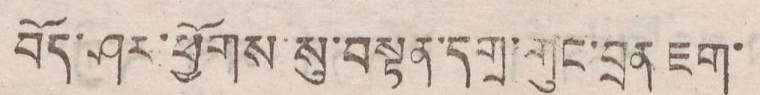བོད་ཤར་ཕྱོགས་སུ་བསྟན་དགྲ་གུང་བྲན ཇག་
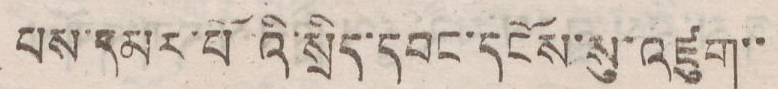པས་དམར་པོའི་སྲིད་དབང་དངོས་སུ་འཛུག་་
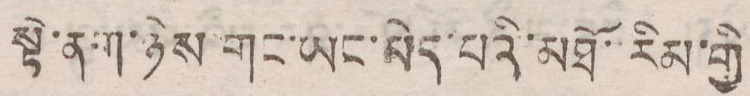སྟེ་ནག་ཉེས གང་ཡང་མེད་པའི་མཐོ་རིམ་གྱི
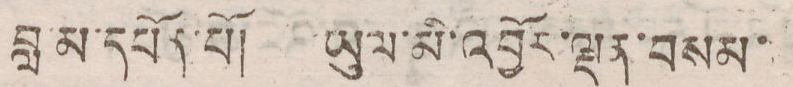བླ་མ་དཔོན་པོ། ཡུལ་མི་འབྱོར་ལྡན་བསམ་
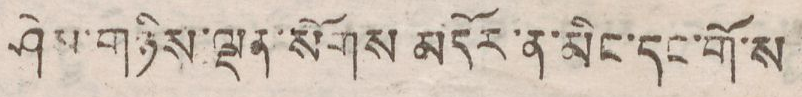ཤེས་གཉིས་ལྡན་སོགས མདོར་ན་མིང་དང་གོ་ས
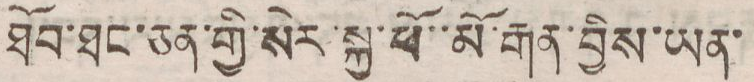ཐོབ་ཐང་ཅན་གྱི་སེར་སྐྱ་ཕོ་་མོ་རྒན་བྱིས་ཡན་
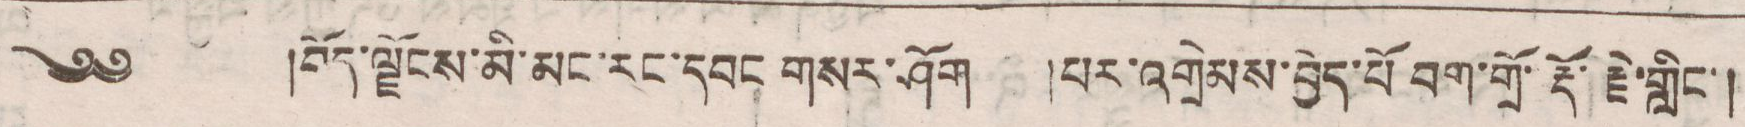༄༅ །བོད་ལྗོངས་མི་མང་རང་དབང གསར་ཤོག །པར་འགྲེམས་བྱེད་པོ བག་གྲོ་རྡོ་རྗེ་གླིང་།
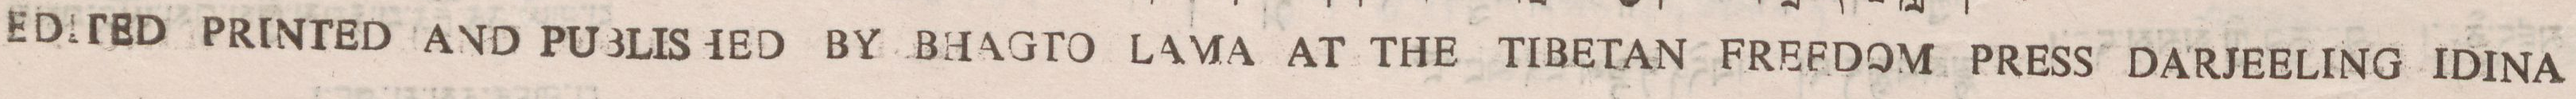EDITED PRINTED AND PUBLISHED BY BHAGTO LAMA AT THE TIBETAN FREEDOM PRESS DARJEELING IDINA
